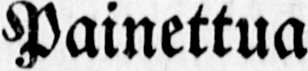Painettua
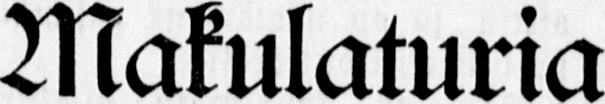Makulaturia
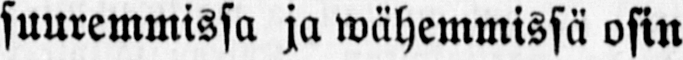suuremmissa ja wähemmissä osin
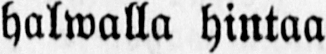halwalla hintaa
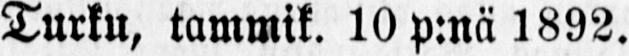Turku, tammik. 10p:nä 1892.
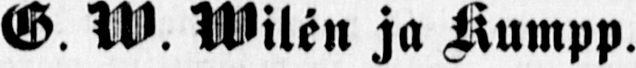G. W. Wilén ja Kumpp.
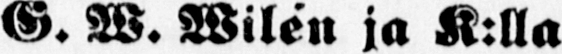G. W. Wilen ja K:lla
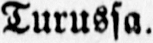Turussa.
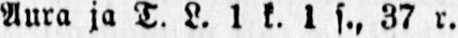Aura ja T. L. 1 k. 1 s., 37 r.
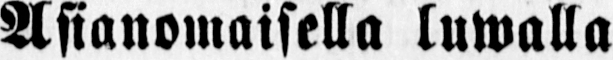Asianomaisella luwalla
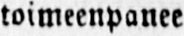toimeenpanee
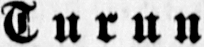Turun
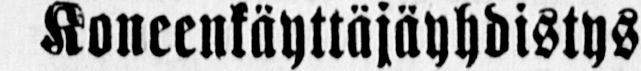Koneenkäyttäjäyhdistys
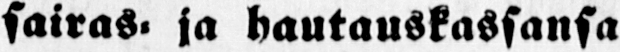sairas ja hautauskassansa
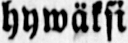hywäksi
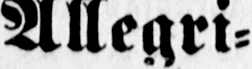Allegri-
